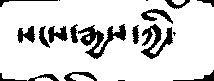སངས་རྒྱས་ཀྱི་
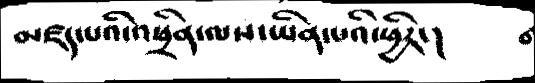མཛད་པའི་འཕྲིན་ལས་ཡིན་པའི་ཕྱིར་།
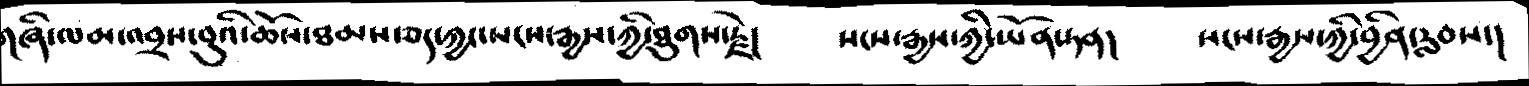གཞི་ལམ་འབྲས་བུའི་ཆོས་ཐམས་ཅད་ཀྱང་སངས་རྒྱས་ཀྱི་ཐུགས་རྗེ།    སངས་རྒྱས་ཀྱི་ཡོན་ཏན།   སངས་རྒྱས་ཀྱི་བྱིན་རླབས་།
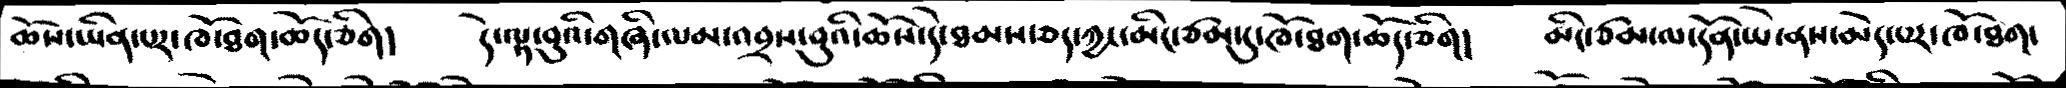ཆོས་ཡིན་པར་ཁོ་ཐག་ཆོད་ཅིག།   དེ་ལྟ་བུའི་གཞི་ལམ་འབྲས་བུའི་ཆོས་དེ་ཐམས་ཅད་ཀྱང་མིང་ཙམ་དུ་ཁོ་ཐག་ཆོད་ཅིག།   མིང་ཙམ་ལ་དོན་ཡེ་ནས་མེད་པར་ཁོ་ཐག་
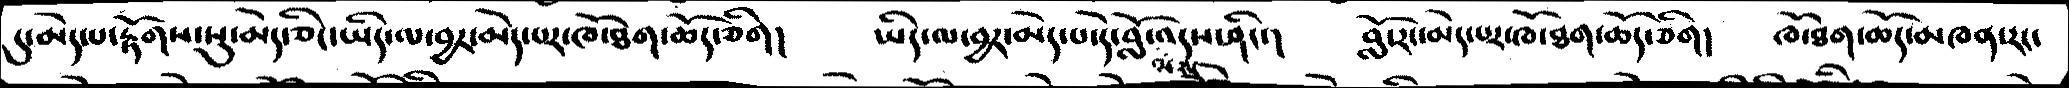དུ་མེད་པ་རྟོགས་སུ་མེད་ཅིང་ཡིད་ལ་བྱར་མེད་པར་ཁོ་ཐག་ཆོད་ཅིག།   ཡིད་ལ་བྱར་མེད་པ་དེ་བློ་ལས་འདས་ཤིང་།   བློ་རང་མེད་པར་ཁོ་ཐག་ཆོད་ཅིག།   ཁོ་ཐག་ཆོད་མཁན་རང་
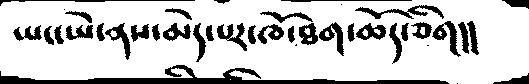ཡང་ཡེ་ནས་མེད་པར་ཁོ་ཐག་ཆོད་ཅིག།།
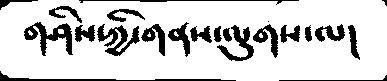གཤིས་ཀྱི་གནས་ལུགས་ལ།
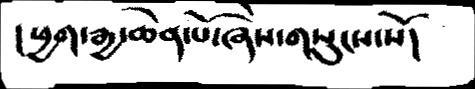།ཕྱག་རྒྱ་ཆེན་པོ་ཞེས་གསུངས་སོ།
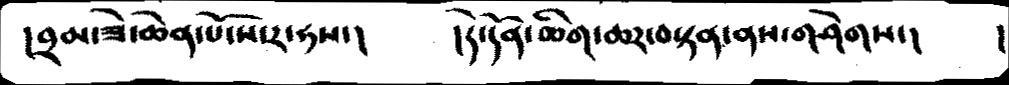།བྲམ་ཟེ་ཆེན་པོ་སར་ཧས་།    །དེ་དོན་ཆིག་ཆར་བསྟན་ནས་གཤེགས་།    །
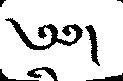༄༅།
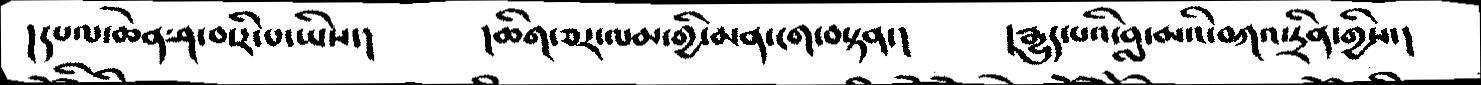།དཔལ་ཆེན་ཤ་བ་རི་པ་ཡིས་།   །ཆིག་ཅར་ལམ་གྱི་མན་ངག་བསྟན་།   །རྒྱུད་པའི་བླ་མའི་བཀའ་དྲིན་གྱིས་།
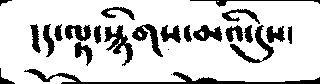།ད་ལྟ་སྙིགས་མའི་དུས་
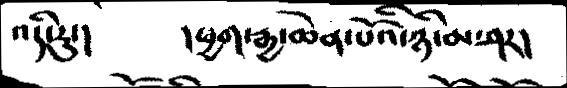འདི་རུ་།   །ཕྱག་རྒྱ་ཆེན་པོའི་ཉི་མ་ཤར།
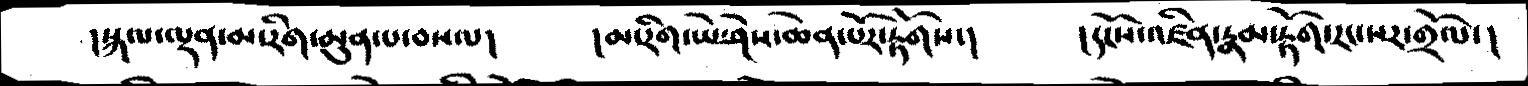།སྐལ་ལྡན་མ་རིག་མུན་པ་བསལ།   །མ་རིག་ཡེ་ཤེས་ཆེན་པོར་རྟོགས་།    །དངོས་འཛིན་རྣམ་རྟོག་རང་སར་གྲོལ་།
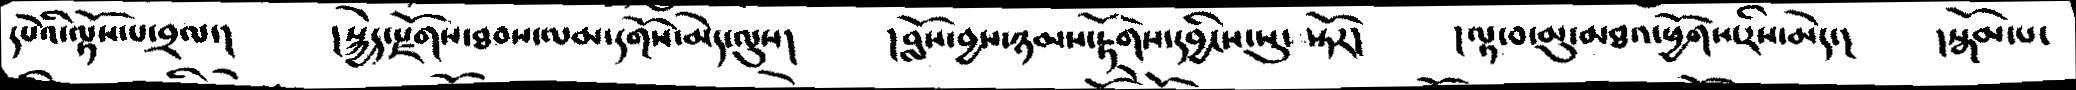དཔེའི་ལྟོས་པ་བྲལ་།   །སྐྱེད་རྫོགས་ཐབས་ལམ་དགོས་མེད་ལུས།   །བློས་བྱས་ཉམས་རྟོགས་དབྱིངས་སུ་སྟོར།   །ལྟ་བ་མུ་མཐའ་ཕྱོགས་རིས་མེད་།   །སྒོམ་པ་
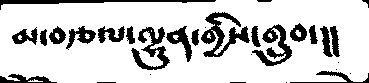མ་བརྩལ་ལྷུན་གྱིས་གྲུབ་།།
